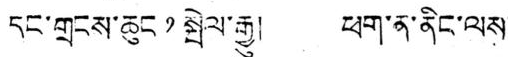དང་གྲངས་ཆུང ༡ སྤེལ་རྒྱུ། ཕག་ན་ནིང་ལས་
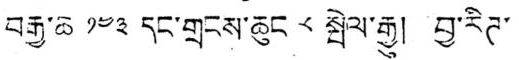བརྒྱ་ཆ ༡༤༣ དང་གྲངས་ཆུང ༨ སྤེལ་རྒྱུ། བྱ་རིཊ་
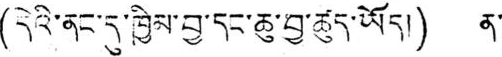(དེའི་ནང་དུ་ཁྱིམ་བྱ་དང་ཆུ་བྱ་ཚུད་ཡོད།) ན་
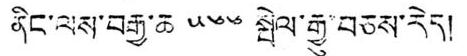ནིང་ལས་བརྒྱ་ཆ ༥༦༦ སྤེལ་རྒྱུ་བཅས་རེད།
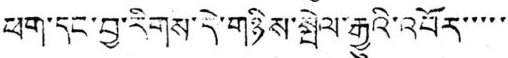ཕག་དང་བྱ་རིགས་དེ་གཉིས་སྤེལ་རྒྱུའི་འབོར་་་་་
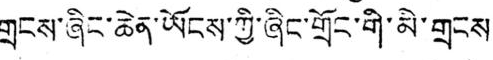གྲངས་ཞིང་ཆེན་ཡོངས་ཀྱི་ཞིང་གྲོང་གི་མི་གྲངས་
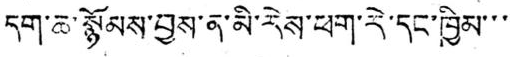དག་ཆ་སྙོམས་བྱས་ན་མི་རེས་ཕག་རེ་དང་ཁྱིམ་་་
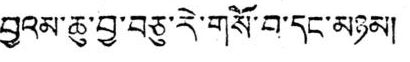བྱའམ་ཆུ་བྱ་བཅུ་རེ་གསོ་བ་དང་མཉམ།
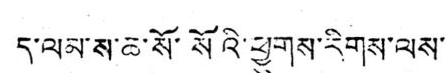ད་ལམ་ས་ཆ་སོ་སོའི་ཕྱུགས་རིགས་ལས་
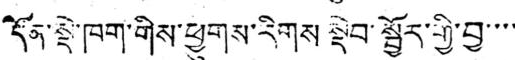དོན་སྡེ་ཁག་གིས་ཕྱུགས་རིགས སྡེབ་སྦྱོར་གྱི་བྱ་་་་
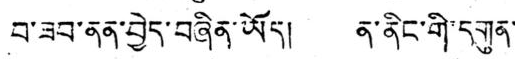བ་ཟབ་ནན་བྱེད་བཞིན་ཡོད། ན་ནིང་གི་དགུན་
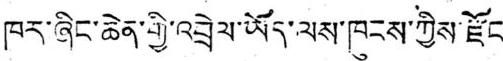ཁར་ཞིང་ཆེན་གྱི་འབྲེལ་ཡོད་ལས་ཁུངས་ཀྱིས་རྫོང་
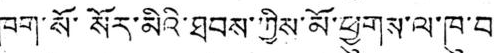ཁག་སོ་སོར་མིའི་ཐབས་ཀྱིས་མོ་ཕྱུགས་ལ་ཁུ་བ་
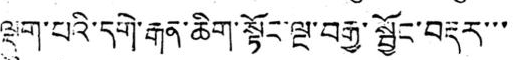ལྡུག་པའི་དགེ་རྒན་ཆིག་སྟོང་ལྔ་བརྒྱ་སྦྱོང་བརྡར་་་
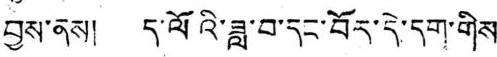བྱས་ནས། ད་ལོའི་ཟླ་བ་དང་བོར་དེ་དག་གིས་
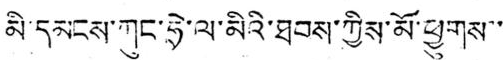མི་དམངས་ཀུང་ཧྲེ་ལ་མིའི་ཐབས་ཀྱིས་མོ་ཕྱུགས་་་
